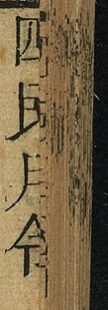四民月令
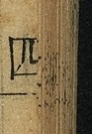四
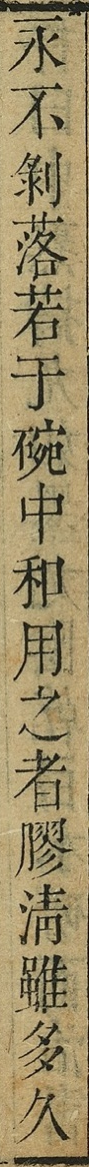永不剝落若于碗中和用之者膠清雖多久
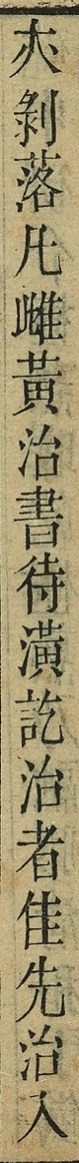以剝落凡雌黃治書待潢訖治者佳先治入
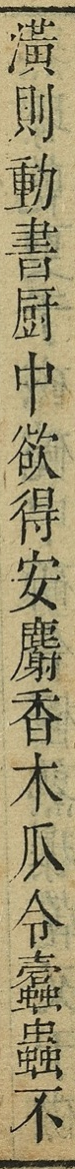潢則動書廚中欲得安麝香木瓜令蠹蟲不
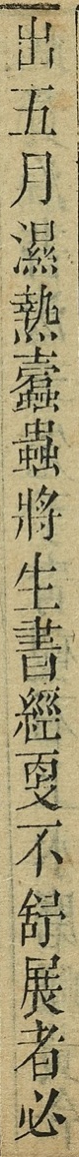出五月濕熱蠹蟲將生書經更不舒展者必
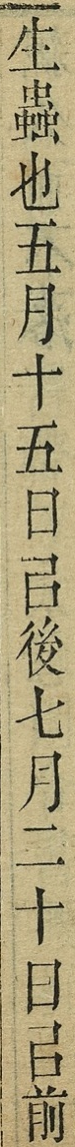生蟲也五月十五日以後七月二十日以前
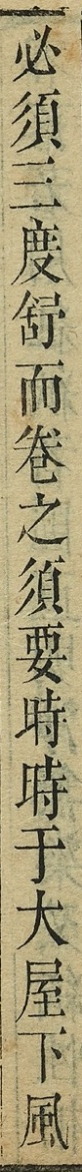必須三度舒而卷之須要時時于大屋下風
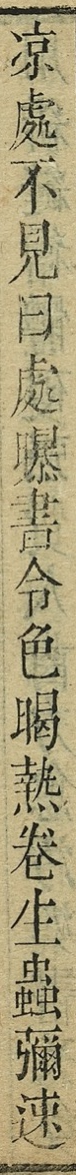凉處不見曰處曝書令色暍熱卷生蟲彌速
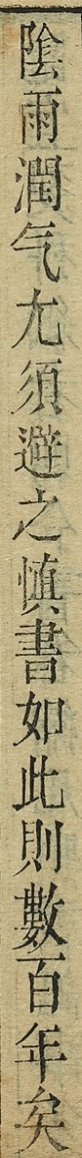陰雨潤气尢須避之慎書如此則數百年矣
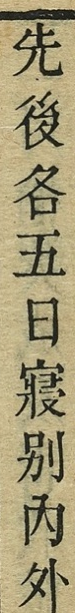先後各五日寢別内外
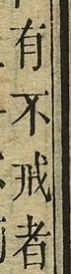有不戒者
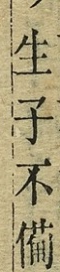生子不備
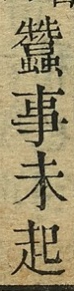蠶事未起
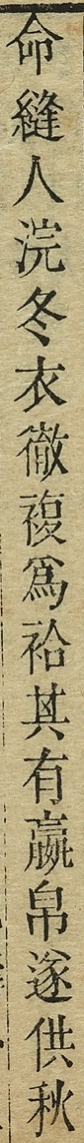命縫人浣冬衣徹複為袷其有嬴帛遂供秋
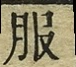服
